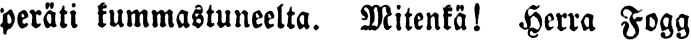peräti kummastuneelta. Mitenkä! Herra Fogg
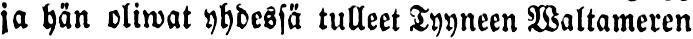ja hän oliwat yhdessä tulleet Tyyneen Waltameren
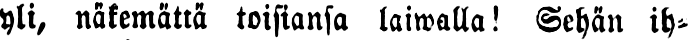yli, näkemättä toisiansa laiwalla! Sehän ih-
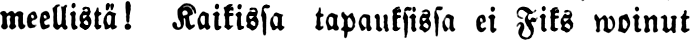meellistä! Kaikissa tapauksissa ei Fiks woinut
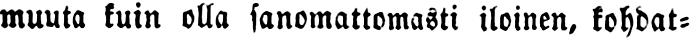muuta kuin olla sanomattomasti iloinen, kohdat-
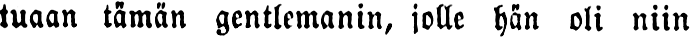tuaan tämän gentlemanin, jolle hän oli niin
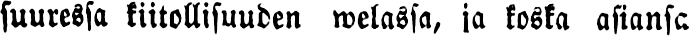suuressa kiitollisuuden welassa, ja koska asiansa
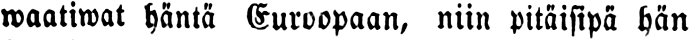waatiwat häntä Euroopaan, niin pitäisipä hän
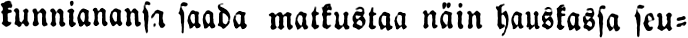kunnianansa saada matkustaa näin hauskassa seu-
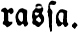rassa.
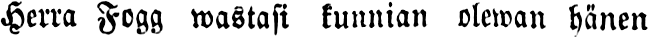Herra Fogg wastasi kunnian olewan hänen
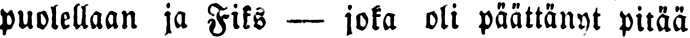puolellaan ja Fiks — joka oli päättänyt pitää
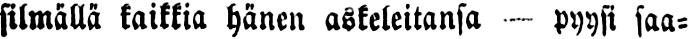silmällä kaikkia hänen askeleitansa - pyysi saa-
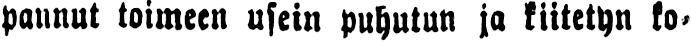pannut toimeen usein puhutun ja kiitetyn ko-
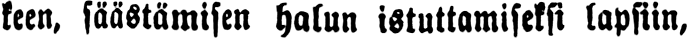keen, säästämisen halun istuttamiseksi lapsiin,
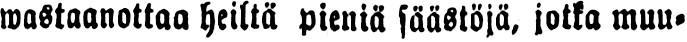wastaanottaa heiltä pieniä säästöjä, jotka muu-
